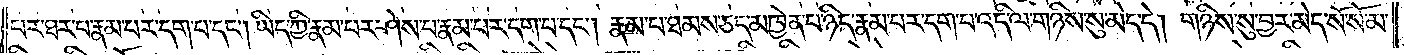པར་ཐར་པ་རྣམ་པར་དག་པ་དང༌། ཡིད་ཀྱི་རྣམ་པར་ཤེས་པ་རྣམ་པར་དག་པ་དང༌། རྣམ་པ་ཐམས་ཅད་མཁྱེན་པ་ཉིད་རྣམ་པར་དག་པ་འདི་ལ་གཉིས་སུ་མེད་དེ། གཉིས་སུ་བྱར་མེད་སོ་སོ་མ་
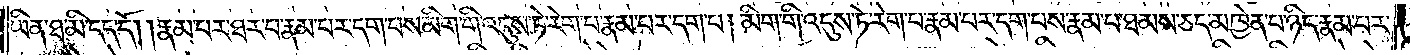ཡིན་ཐ་མི་དད་དོ། །རྣམ་པར་ཐར་པ་རྣམ་པར་དག་པས་མིག་གི་འདུས་ཏེ་རེག་པ་རྣམ་པར་དག་པ། མིག་གི་འདུས་ཏེ་རེག་པ་རྣམ་པར་དག་པས་རྣམ་པ་ཐམས་ཅད་མཁྱེན་པ་ཉིད་རྣམ་པར་
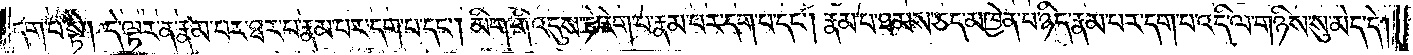དག་པ་སྟེ། དེ་ལྟར་ན་རྣམ་པར་ཐར་པ་རྣམ་པར་དག་པ་དང༌། མིག་གི་འདུས་ཏེ་རེག་པ་རྣམ་པར་དག་པ་དང༌། རྣམ་པ་ཐམས་ཅད་མཁྱེན་པ་ཉིད་རྣམ་པར་དག་པ་འདི་ལ་གཉིས་སུ་མེད་དེ།
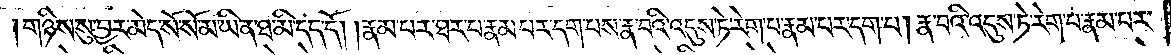གཉིས་སུ་བྱར་མེད་སོ་སོ་མ་ཡིན་ཐ་མི་དད་དོ། །རྣམ་པར་ཐར་པ་རྣམ་པར་དག་པས་རྣ་བའི་འདུས་ཏེ་རེག་པ་རྣམ་པར་དག་པ། རྣ་བའི་འདུས་ཏེ་རེག་པ་རྣམ་པར་
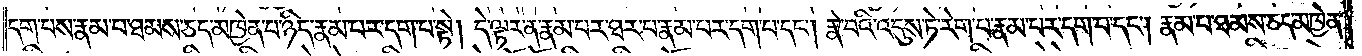དག་པས་རྣམ་པ་ཐམས་ཅད་མཁྱེན་པ་ཉིད་རྣམ་པར་དག་པ་སྟེ། དེ་ལྟར་ན་རྣམ་པར་ཐར་པ་རྣམ་པར་དག་པ་དང༌། རྣ་བའི་འདུས་ཏེ་རེག་པ་རྣམ་པར་དག་པ་དང༌། རྣམ་པ་ཐམས་ཅད་མཁྱེན་
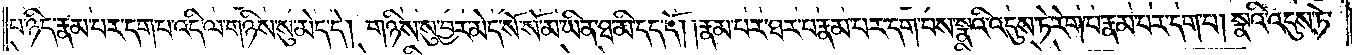པ་ཉིད་རྣམ་པར་དག་པ་འདི་ལ་གཉིས་སུ་མེད་དེ། གཉིས་སུ་བྱར་མེད་སོ་སོ་མ་ཡིན་ཐ་མི་དད་དོ། །རྣམ་པར་ཐར་པ་རྣམ་པར་དག་པས་སྣའི་འདུས་ཏེ་རེག་པ་རྣམ་པར་དག་པ། སྣའི་འདུས་ཏེ་
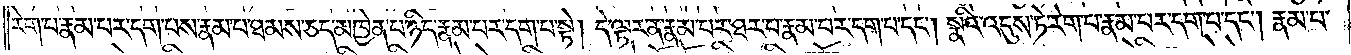རེག་པ་རྣམ་པར་དག་པས་རྣམ་པ་ཐམས་ཅད་མཁྱེན་པ་ཉིད་རྣམ་པར་དག་པ་སྟེ། དེ་ལྟར་ན་རྣམ་པར་ཐར་པ་རྣམ་པར་དག་པ་དང༌། སྣའི་འདུས་ཏེ་རེག་པ་རྣམ་པར་དག་པ་དང༌། རྣམ་པ་
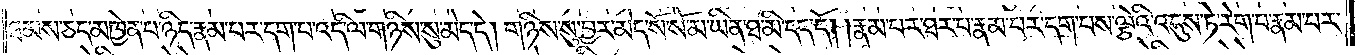ཐམས་ཅད་མཁྱེན་པ་ཉིད་རྣམ་པར་དག་པ་འདི་ལ་གཉིས་སུ་མེད་དེ། གཉིས་སུ་བྱར་མེད་སོ་སོ་མ་ཡིན་ཐ་མི་དད་དོ། །རྣམ་པར་ཐར་པ་རྣམ་པར་དག་པས་ལྕེའི་འདུས་ཏེ་རེག་པ་རྣམ་པར་
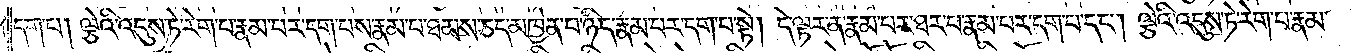དག་པ། ལྕེའི་འདུས་ཏེ་རེག་པ་རྣམ་པར་དག་པས་རྣམ་པ་ཐམས་ཅད་མཁྱེན་པ་ཉིད་རྣམ་པར་དག་པ་སྟེ། དེ་ལྟར་ན་རྣམ་པར་ཐར་པ་རྣམ་པར་དག་པ་དང༌། ལྕེའི་འདུས་ཏེ་རེག་པ་རྣམ་
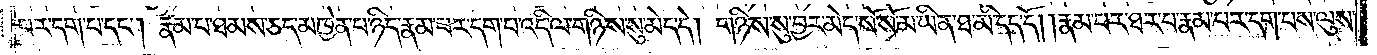པར་དག་པ་དང༌། རྣམ་པ་ཐམས་ཅད་མཁྱེན་པ་ཉིད་རྣམ་པར་དག་པ་འདི་ལ་གཉིས་སུ་མེད་དེ། གཉིས་སུ་བྱར་མེད་སོ་སོ་མ་ཡིན་ཐ་མི་དད་དོ། །རྣམ་པར་ཐར་པ་རྣམ་པར་དག་པས་ལུས་
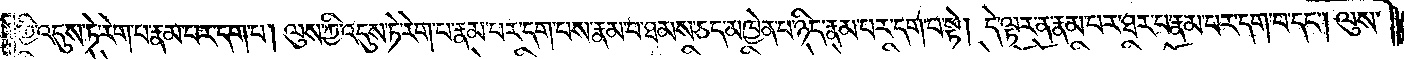ཀྱི་འདུས་ཏེ་རེག་པ་རྣམ་པར་དག་པ། ལུས་ཀྱི་འདུས་ཏེ་རེག་པ་རྣམ་པར་དག་པས་རྣམ་པ་ཐམས་ཅད་མཁྱེན་པ་ཉིད་རྣམ་པར་དག་པ་སྟེ། དེ་ལྟར་ན་རྣམ་པར་ཐར་པ་རྣམ་པར་དག་པ་དང༌། ལུས་
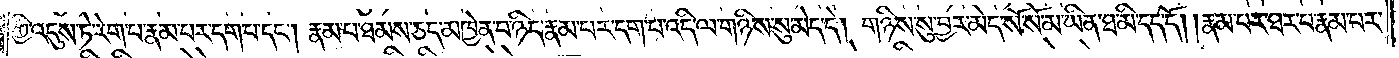ཀྱི་འདུས་ཏེ་རེག་པ་རྣམ་པར་དག་པ་དང༌། རྣམ་པ་ཐམས་ཅད་མཁྱེན་པ་ཉིད་རྣམ་པར་དག་པ་འདི་ལ་གཉིས་སུ་མེད་དེ། གཉིས་སུ་བྱར་མེད་སོ་སོ་མ་ཡིན་ཐ་མི་དད་དོ། །རྣམ་པར་ཐར་པ་རྣམ་པར་
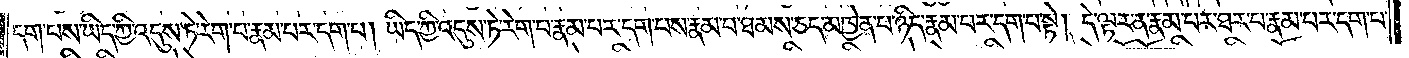དག་པས་ཡིད་ཀྱི་འདུས་ཏེ་རེག་པ་རྣམ་པར་དག་པ། ཡིད་ཀྱི་འདུས་ཏེ་རེག་པ་རྣམ་པར་དག་པས་རྣམ་པ་ཐམས་ཅད་མཁྱེན་པ་ཉིད་རྣམ་པར་དག་པ་སྟེ། དེ་ལྟར་ན་རྣམ་པར་ཐར་པ་རྣམ་པར་དག་པ་
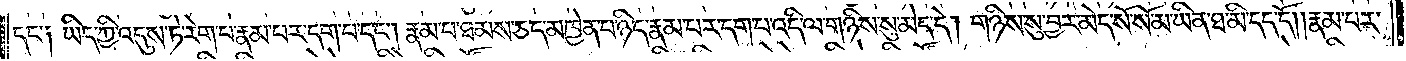དང་༑ ཡིད་ཀྱི་འདུས་ཏེ་རེག་པ་རྣམ་པར་དག་པ་དང༌། རྣམ་པ་ཐམས་ཅད་མཁྱེན་པ་ཉིད་རྣམ་པར་དག་པ་འདི་ལ་གཉིས་སུ་མེད་དེ། གཉིས་སུ་བྱར་མེད་སོ་སོ་མ་ཡིན་ཐ་མི་དད་དོ། །རྣམ་པར་
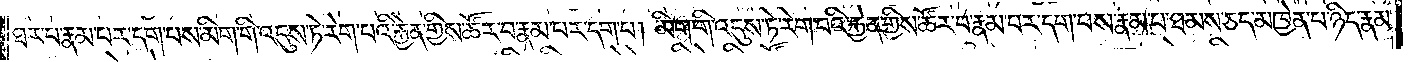ཐར་པ་རྣམ་པར་དག་པས་མིག་གི་འདུས་ཏེ་རེག་པའི་རྐྱེན་གྱིས་ཚོར་བ་རྣམ་པར་དག་པ། མིག་གི་འདུས་ཏེ་རེག་པའི་རྐྱེན་གྱིས་ཚོར་བ་རྣམ་པར་དག་པས་རྣམ་པ་ཐམས་ཅད་མཁྱེན་པ་ཉིད་རྣམ་
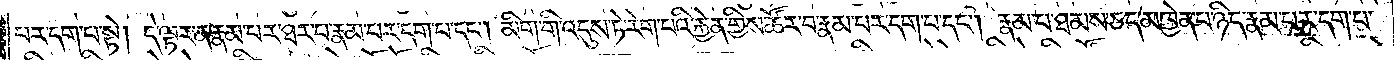པར་དག་པ་སྟེ། དེ་ལྟར་ན་རྣམ་པར་ཐར་པ་རྣམ་པར་དག་པ་དང༌། མིག་གི་འདུས་ཏེ་རེག་པའི་རྐྱེན་གྱིས་ཚོར་བ་རྣམ་པར་དག་པ་དང༌། རྣམ་པ་ཐམས་ཅད་མཁྱེན་པ་ཉིད་རྣམ་པར་དག་པ་
